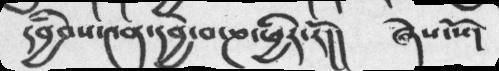དབྱིབས་༤ན་དབྱེ་བ་ཎ་ཕྱིར་རོ།།  ཞེས་སོ།
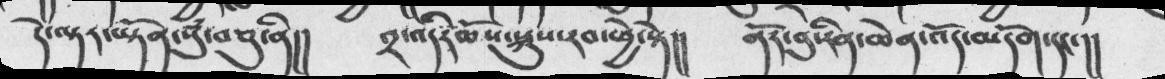དེ་ལྟར་ཡྟོན་སུཾ་བཅུ་ནི།།  ༢་འདིརཆོས་སྐུས་རབ་ཕྱེ་སྟེ།།  ནོར་བུ་རིན་ཆེན་འོད་མདོག་དང་།།
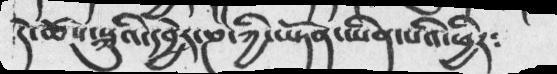དེ་ཆོས་སྐུའི་དབྱེར་ཎ་ཀྱི་ཡྟོན་ཡིན་པའི་ཕྱིར༴
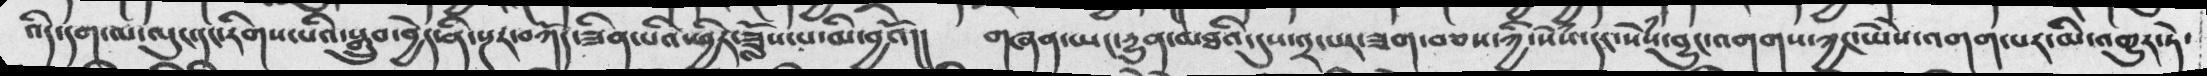འདི་དག་མ་ལུང་དང་རིགས་པའི་སྒྲུབ་བྱེད་ནི་སྔར་བཀོད་ཟིན་པའི་ཕྱིར་ཟློས་པ་མི་བྱའོ།།  གཞན་ཡང་དྱུན་མཐའི་དུས་༢་པར་ཟག་བཅས་ཀྱི་སེཾས་བྱུང་འགགས་ཀྱང་ཡེེས་འགག་པར་མི་འགྱུར་ཏེ༴
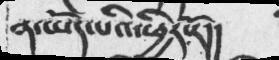ན་ཡོད་པའི་ཕྱིར་རོ།།
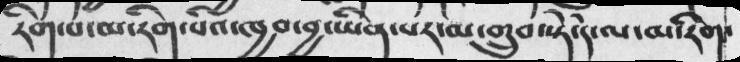རིག་པ་མ་རིག་པའི་ཁྱབ་བྱ་ཡིན་པར་མ་གྲུབ་སྟེ་དེ་ལ་མ་རིག་
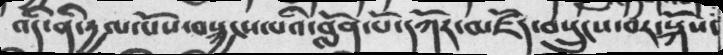འདི་ནི་དྱལ་པོས་བསྐྱངས་པའི་བློན་པོ་དཀོར་མཛོད་བསྲུངས་བར་སྐོས་
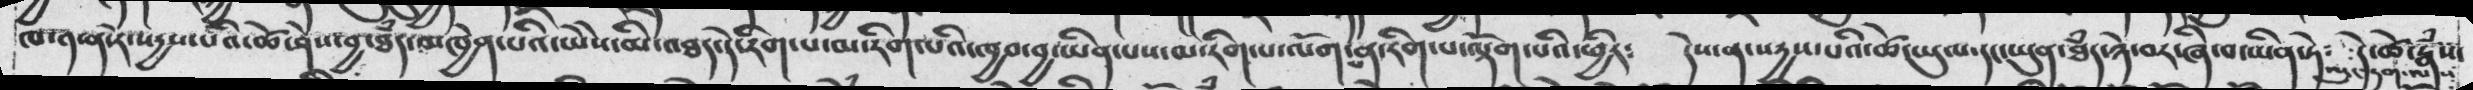ཁ ༡་ན་རེ་སདྱས་པའི་ཚེ་ཤེས་བྱ་ཐཾད་མཁྱེན་པའི་ཡེེས་མི་འཐད་དེ་རིག་པ་མ་རིག་པའི་ཁྱབ་བྱ་ཡིན་པས་མ་རིག་པ་ལོག་པ་ན་རིག་པ་ལྡོག་པའི་ཕྱིར༴   དེས་ན་སདྱས་པའི་ཚེ་ཡུལ་དང་ཡུན་ཐཾད་ཉེ་བར་ཞི་བ་ཡིན་ཏེ་ལུང་དག་ལས་དེ་ཚེ་རྣཾས་
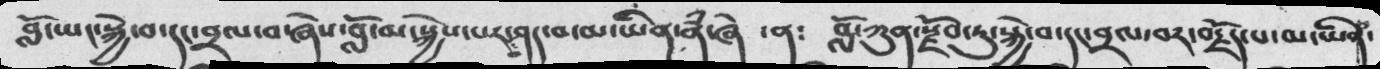བློ་ཡང་སྐྱེ་བ་དང་བྲལ་བ་ཞེས་བློ་མ་སྐྱེས་པར་བཤད་བ་མ་ཡིན་ནཾ་ཞེ  ་ན༴   བློ་ཀུན་རྫོབ་ཏུ་སྐྱེས་བ་དང་བྲལ་བར་བརྗོད་པ་མ་ཡིན་
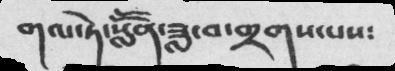གལ་ཏེ་སློོན་ཟླ་བ་གྲགས་པས༴
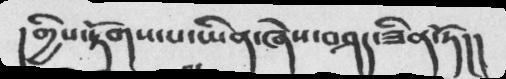།གྱིས་རྟོགས་པ་ཡིན་ཞེས་བཤད་ཟིན་ཏོ།།
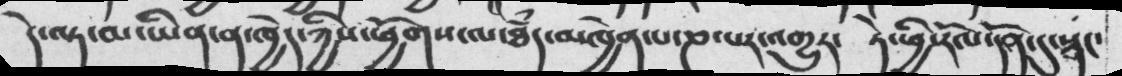དེ་ལྟ་མ་ཡིན་ན་ཁྱེད་ཀྱིས་ཕྱོགས་ལ་ཐཾད་མཁྱེན་པ་ཎ་པར་འགྱུར་  ཏེ་ཕྱི་རོལ་དོན་དུ་སྣང་
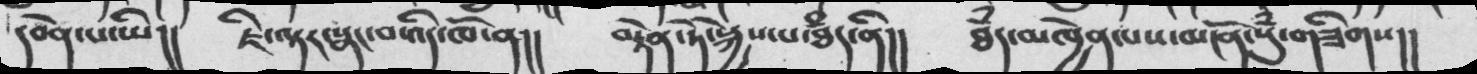དབེན་པ་ཡི།།  ཇི་ལྟར་སྣང་བ་འདི་ཁོ་ན།།  བརྟེན་ཏེ་སྐྱེས་པ་ཐཾད་ནི།།  ཐཾད་མཁྱེན་པས་མངོན་སུཾ་གཟིགས།།
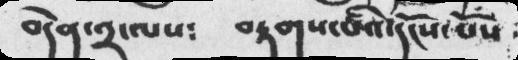བདེན་༢་ལས༴  བརྟགས་པའི་དངོས་པོས
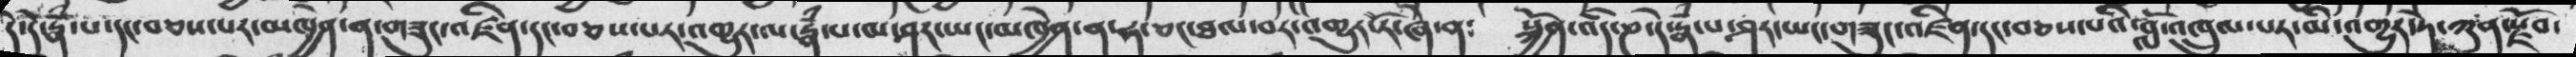དེ་དེ་རྣཾ་པ་དང་བཅས་པར་མཁྱེན་ན་གཟུང་འཛིན་དང་བཅས་པར་འགྱུར་ལ་རྣཾ་པ་མ་ཤར་ཡང་མཁྱེན་ན་ཧ་ཅང་ཐལ་བར་འགྱུར་རོ་ཞེ་ན༴  སྐྱོན་འདི་ཎ་དེ་རྣཾ་པ་ཤར་ཡང་གཟུང་འཛིན་དང་བཅས་པའི་བློ་འཁྲུལ་པར་མི་འགྱུར་ཏེ་ཀུན་སྗོབ་
